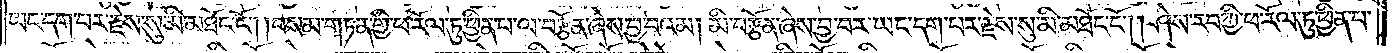ཡང་དག་པར་རྗེས་སུ་མི་མཐོང་ངོ༌། །བསམ་གཏན་གྱི་ཕ་རོལ་ཏུ་ཕྱིན་པ་ལ་བརྩོན་ཞེས་བྱ་བའམ། མི་བརྩོན་ཞེས་བྱ་བར་ཡང་དག་པར་རྗེས་སུ་མི་མཐོང་ངོ༌། །ཤེས་རབ་ཀྱི་ཕ་རོལ་ཏུ་ཕྱིན་པ་
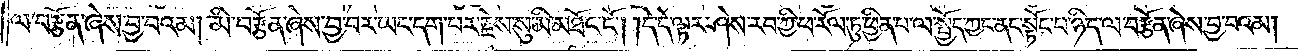ལ་བརྩོན་ཞེས་བྱ་བའམ། མི་བརྩོན་ཞེས་བྱ་བར་ཡང་དག་པར་རྗེས་སུ་མི་མཐོང་ངོ༌། །དེ་དེ་ལྟར་ཤེས་རབ་ཀྱི་ཕ་རོལ་ཏུ་ཕྱིན་པ་ལ་སྤྱོད་ཀྱང་ནང་སྟོང་པ་ཉིད་ལ་བརྩོན་ཞེས་བྱ་བའམ།
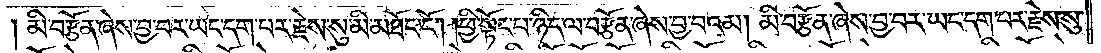མི་བརྩོན་ཞེས་བྱ་བར་ཡང་དག་པར་རྗེས་སུ་མི་མཐོང་ངོ༌། །ཕྱི་སྟོང་པ་ཉིད་ལ་བརྩོན་ཞེས་བྱ་བའམ། མི་བརྩོན་ཞེས་བྱ་བར་ཡང་དག་པར་རྗེས་སུ་
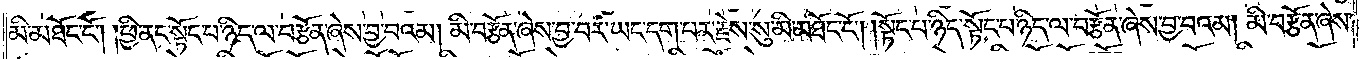མི་མཐོང་ངོ༌། །ཕྱི་ནང་སྟོང་པ་ཉིད་ལ་བརྩོན་ཞེས་བྱ་བའམ། མི་བརྩོན་ཞེས་བྱ་བར་ཡང་དག་པར་རྗེས་སུ་མི་མཐོང་ངོ༌། །སྟོང་པ་ཉིད་སྟོང་པ་ཉིད་ལ་བརྩོན་ཞེས་བྱ་བའམ། མི་བརྩོན་ཞེས་
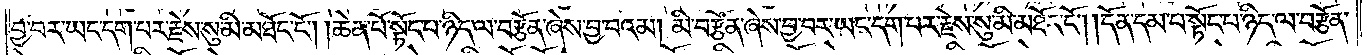བྱ་བར་ཡང་དག་པར་རྗེས་སུ་མི་མཐོང་ངོ༌། །ཆེན་པོ་སྟོང་པ་ཉིད་ལ་བརྩོན་ཞེས་བྱ་བའམ། མི་བརྩོན་ཞེས་བྱ་བར་ཡང་དག་པར་རྗེས་སུ་མི་མཐོང་ངོ༌། །དོན་དམ་པ་སྟོང་པ་ཉིད་ལ་བརྩོན་
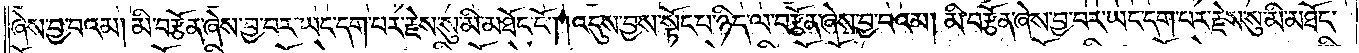ཞེས་བྱ་བའམ། མི་བརྩོན་ཞེས་བྱ་བར་ཡང་དག་པར་རྗེས་སུ་མི་མཐོང་ངོ༌། །འདུས་བྱས་སྟོང་པ་ཉིད་ལ་བརྩོན་ཞེས་བྱ་བའམ། མི་བརྩོན་ཞེས་བྱ་བར་ཡང་དག་པར་རྗེས་སུ་མི་མཐོང་
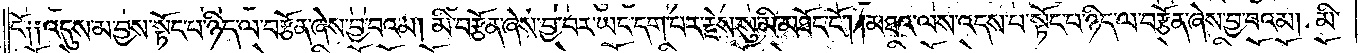ངོ༑ ༑འདུས་མ་བྱས་སྟོང་པ་ཉིད་ལ་བརྩོན་ཞེས་བྱ་བའམ། མི་བརྩོན་ཞེས་བྱ་བར་ཡང་དག་པར་རྗེས་སུ་མི་མཐོང་ངོ༌། །མཐའ་ལས་འདས་པ་སྟོང་པ་ཉིད་ལ་བརྩོན་ཞེས་བྱ་བའམ། མི་
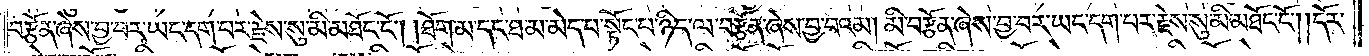བརྩོན་ཞེས་བྱ་བར་ཡང་དག་པར་རྗེས་སུ་མི་མཐོང་ངོ༌། །ཐོག་མ་དང་ཐ་མ་མེད་པ་སྟོང་པ་ཉིད་ལ་བརྩོན་ཞེས་བྱ་བའམ། མི་བརྩོན་ཞེས་བྱ་བར་ཡང་དག་པར་རྗེས་སུ་མི་མཐོང་ངོ༌། །དོར་
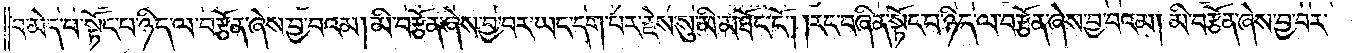བ་མེད་པ་སྟོང་པ་ཉིད་ལ་བརྩོན་ཞེས་བྱ་བའམ། མི་བརྩོན་ཞེས་བྱ་བར་ཡང་དག་པར་རྗེས་སུ་མི་མཐོང་ངོ༌། །རང་བཞིན་སྟོང་པ་ཉིད་ལ་བརྩོན་ཞེས་བྱ་བའམ། མི་བརྩོན་ཞེས་བྱ་བར་
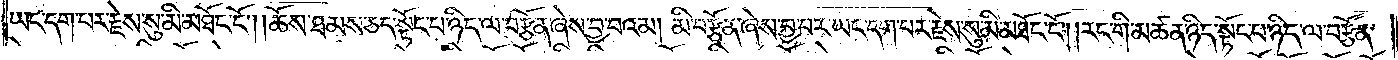ཡང་དག་པར་རྗེས་སུ་མི་མཐོང་ངོ༌། །ཆོས་ཐམས་ཅད་སྟོང་པ་ཉིད་ལ་བརྩོན་ཞེས་བྱ་བའམ། མི་བརྩོན་ཞེས་བྱ་བར་ཡང་དག་པར་རྗེས་སུ་མི་མཐོང་ངོ༌། །རང་གི་མཚན་ཉིད་སྟོང་པ་ཉིད་ལ་བརྩོན་
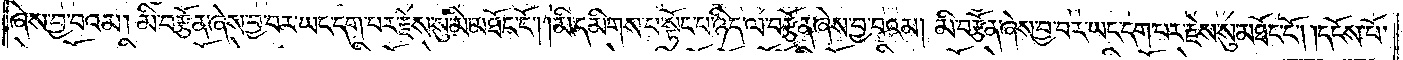ཞེས་བྱ་བའམ། མི་བརྩོན་ཞེས་བྱ་བར་ཡང་དག་པར་རྗེས་སུ་མི་མཐོང་ངོ༌། །མི་དམིགས་པ་སྟོང་པ་ཉིད་ལ་བརྩོན་ཞེས་བྱ་བའམ། མི་བརྩོན་ཞེས་བྱ་བར་ཡང་དག་པར་རྗེས་སུ་མཐོང་ངོ༌། །དངོས་པོ་
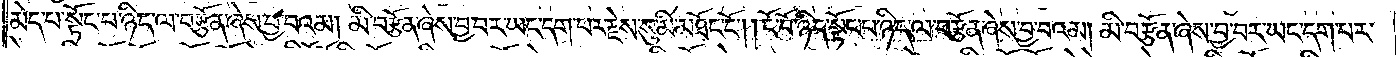མེད་པ་སྟོང་པ་ཉིད་ལ་བརྩོན་ཞེས་བྱ་བའམ། མི་བརྩོན་ཞེས་བྱ་བར་ཡང་དག་པར་རྗེས་སུ་མི་མཐོང་ངོ༌། །ངོ་བོ་ཉིད་སྟོང་པ་ཉིད་ལ་བརྩོན་ཞེས་བྱ་བའམ། མི་བརྩོན་ཞེས་བྱ་བར་ཡང་དག་པར་
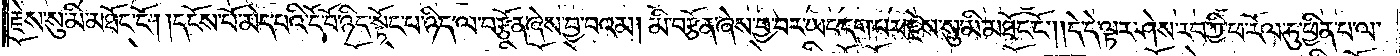རྗེས་སུ་མི་མཐོང་ངོ༌། །དངོས་པོ་མེད་པའི་ངོ་བོ་ཉིད་སྟོང་པ་ཉིད་ལ་བརྩོན་ཞེས་བྱ་བའམ། མི་བརྩོན་ཞེས་བྱ་བར་ཡང་དག་པར་རྗེས་སུ་མི་མཐོང་ངོ༌། །དེ་དེ་ལྟར་ཤེས་རབ་ཀྱི་ཕ་རོལ་ཏུ་ཕྱིན་པ་ལ་
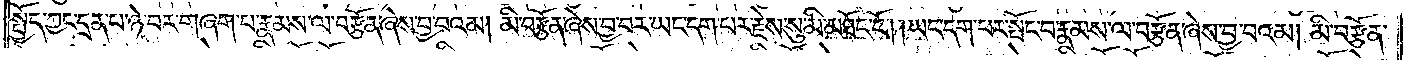སྤྱོད་ཀྱང་དྲན་པ་ཉེ་བར་གཞག་པ་རྣམས་ལ་བརྩོན་ཞེས་བྱ་བའམ། མི་བརྩོན་ཞེས་བྱ་བར་ཡང་དག་པར་རྗེས་སུ་མི་མཐོང་ངོ༌། །ཡང་དག་པར་སྤོང་བ་རྣམས་ལ་བརྩོན་ཞེས་བྱ་བའམ། མི་བརྩོན་
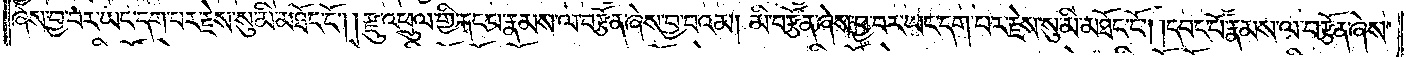ཞེས་བྱ་བར་ཡང་དག་པར་རྗེས་སུ་མི་མཐོང་ངོ༌། །རྫུ་འཕྲུལ་གྱི་རྐང་པ་རྣམས་ལ་བརྩོན་ཞེས་བྱ་བའམ། མི་བརྩོན་ཞེས་བྱ་བར་ཡང་དག་པར་རྗེས་སུ་མི་མཐོང་ངོ༌། །དབང་པོ་རྣམས་ལ་བརྩོན་ཞེས་
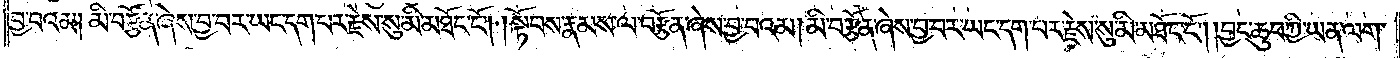བྱ་བའམ། མི་བརྩོན་ཞེས་བྱ་བར་ཡང་དག་པར་རྗེས་སུ་མི་མཐོང་ངོ༌། །སྟོབས་རྣམས་ལ་བརྩོན་ཞེས་བྱ་བའམ། མི་བརྩོན་ཞེས་བྱ་བར་ཡང་དག་པར་རྗེས་སུ་མི་མཐོང་ངོ༌། །བྱང་ཆུབ་ཀྱི་ཡན་ལག་
